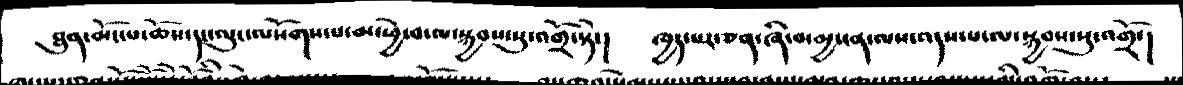ཐུན་མོང་པ་ཆོས་དང་ལུང་ལསོགས་པ་མ་ཕྱེ་བ་ལ་སྐྱབས་སུ་འགྲོ་སྟེ་།  ཁྱད་པར་ཅན་ཞི་བ་མྱ་ངན་ལས་འདས་པ་ལ་སྐྱབས་སུ་འགྲོ་།
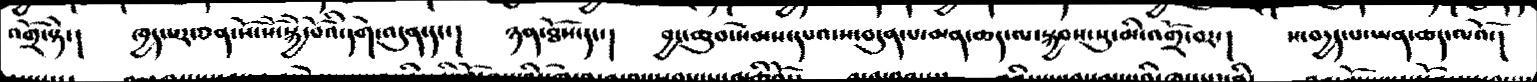འགྲོ་སྟེ་།  ཁྱད་པར་ཅན་སོ་སོ་སྐྱེ་བོའི་དགེ་འདུན་དང་།  ཉན་ཐོས་དང་།  བྱང་ཆུབ་སེམས་དཔའ་ས་བདུན་པ་མན་ཆད་ལ་སྐྱབས་སུ་མི་འགྲོ་བར་།  ས་བདྱད་པ་ཡན་ཆད་ལའོ་།
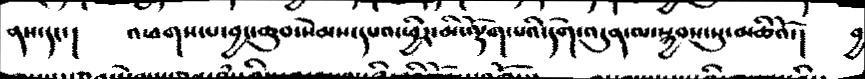ནས་དང་།  འཕགས་པ་བྱང་ཆུབ་སེམས་དཔའ་ཕྱིར་མི་ལྡོག་པའི་དགེ་འདུན་ལ་སྐྱབས་སུ་མཆིའོ་།  བྱ
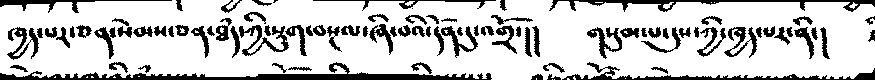ཁྱད་པར་ཅན་སེམས་ཅན་ཐཾད་ཀྱི་སྡུག་བསྔལ་ཞི་བའི་དོན་དུ་འགྲོ་།།  གསུམ་པ་དུས་ཀྱི་ཁྱད་པར་ནི་།
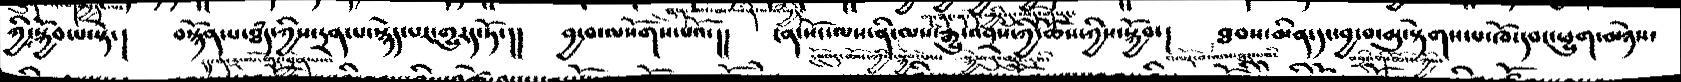ཀྱིས་སྐྱོབ་པ་སྟེ་།    བསྙོན་པ་ཐཾད་ཀྱིས་དྲན་པ་སྙེད་པར་གྱུར་ཏོ་།།  ངན་སོང་ལས་མ་ལས་རྒྱུ་འབྲས་ཀྱི་ཆོས་ཀྱིས་སྐྱོབ་།  འཁོར་བ་ལས་ཐར་པའི་ཐབས་མིན་དང་བྱ་བ་མ་སྟེགས་པ་ཁོ་དབང་ཕྱུག་མཉེས་
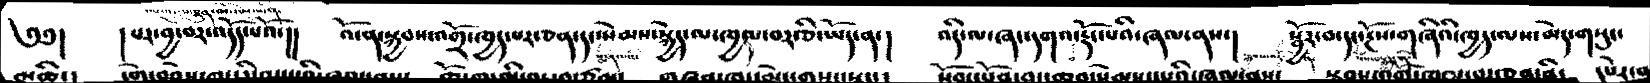༄༅།   ། པར་བྱ་བར་འདོད་པའོ་།།  འོ་ན་སྐྱབས་འགྲོ་ཁྱད་པར་ཅན་དང་སེམས་སྐྱེད་ལ་ཁྱདཔ་བར་ཅི་ཡོད་ན་།  འདི་ལ་ཞང་དགའ་རྡོང་པའི་ཞལ་ནས་།  སྦྱོར་བ་དང་རྔོས་གཞིའི་ཁྱད་ལས་མེད་གསུང་
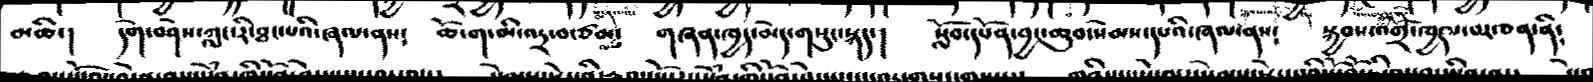མཆི་།  དགེ་བཤེས་ཀླང་རི་ཐང་པའི་ཞལ་ནས༴  ཆོ་ག་མི་འདྲ་བ་ཙམ༴     གཞན་ཁྱད་མེད་གསུང་སྐད་།  སློབ་དཔོན་བྱང་ཆུབ་སེམས་དཔའི་ཞལ་ནས༴  སྐྱབས་འགྲོ་ཁྱདཔ་པར་ཅན་ནི༴
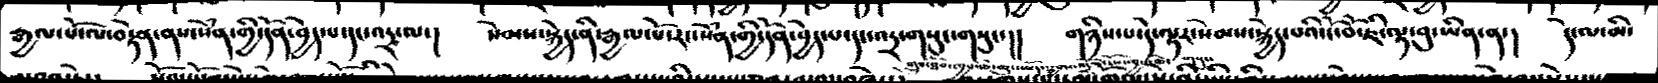རྒྱལ་པོ་ལ་བརྟེན་ནས་སེཾན་གྱི་དོན་བྱེད་པ་དང་འདྲ་ལ་།  སེམས་སྐྱེ་ནི་རྒྱལ་པོ་རང་སེཾན་གྱི་དོན་བྱེད་པ་དང་འདྲ་གསུང་གསུང་།།   གཉིས་པ་དེ་ལྟར་སེམས་སྐྱེད་པའི་ངོ་བོ་ཇི་ལྟ་བུ་ཡིན་ན་།  དེ་ལ་མི་
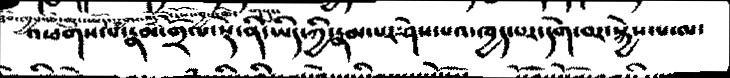འཕགས་པ་རྣམ་གྲོལ་སྡེ་ནི་ཡིད་ཀྱི་རྣམ་པར་ཤེས་པའ་ཁྱད་པར་དགེ་བར་སྐྱེས་པ་ལ་
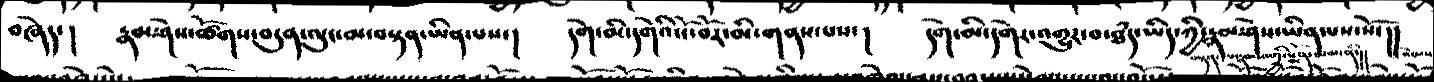བཞེད་།   རྣམ་ཤེས་ཚོགས་བདུན་ལུང་མ་བསྟན་ཡིན་པས་།   དགེ་མི་དགེའི་ངོ་བོར་མི་གནས་པས་།     དགེ་མ་དགེར་འགྱུར་བ་ཐཾད་ཡིད་ཀྱི་རྣམ་ཤེས་ཡིན་པས་སོ་།།
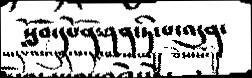སློབ་ས་དཔའ་འདུན་པདང་བཅས་ས།།  ཅེས་སོ་།། དཔོན་ཤན་ཏི་པ་འདུན་
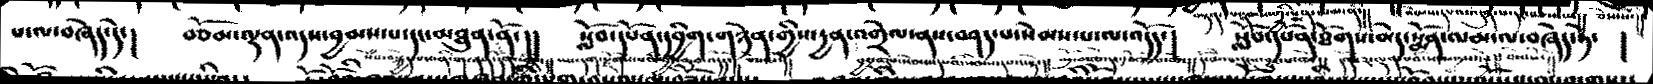པ་ལ་བཞེད་དེ་།  བཅོམ་ལྡན་འདས་བྱམས་པ་དང་མཐུན་སེཾས་བསྐྱེད་པས་ནི་གཞན་དོན་ཕྱིར་།།  ཡང་དག་རྫོགས་པའི་བྱང་ཆུབ་འདོད་།།  ཅེས་སོ་།།  ནོ་།།  སློབ་དཔོན་དབྱིག་གཉེན་གྱིས་རྒྱན་འགྲེལ་ནས་བཤད་པ་སེམས་པ་ལ་འདོད་།  སློབ་དཔོན་ཐོགས་མེད་སྨོན་ལམ་ལ་བཞེད་ཏེ་  །
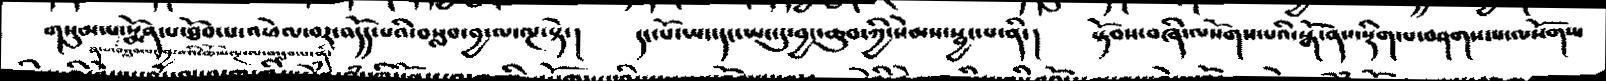གསུམ་པ་སྨོན་པ་ཐོབ་པ་འཕེལ་བར་འདོད་པའི་བསླབ་བྱ་ལ་ལྔ་སྟེ་།  དང་པོ་ཡང་དང་ཡང་དུ་བྱང་ཆུབ་ཀྱི་སེམས་སྦྱང་པ་ནི་།  སྟོབས་བཞི་ལསོགས་པའི་སྒོ་ནས་སྡིག་པ་བཤགས་པ་ལསོགས་
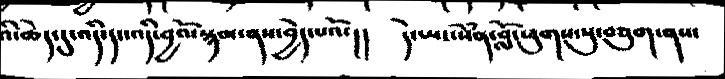འི་ཆེད་དུ་འདི་དང་འདི་བྱའོ་སྙམ་ནས་བྱེད་པའོ་།།  དེ་ཡང་སེཾན་བློ་ཕུགས་སུ་བཅུག་ནས་
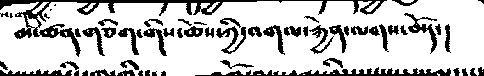མ་ཚན་གཅིག་གིས་ཆོས་ཀྱི་འགལ་རྐྱེན་ལགས་མོད་།
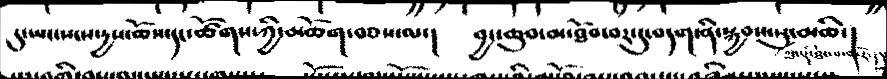དུ་ཡང་སངས་དྱས་ཆོས་དང་ཚོགས་ཀྱི་མཆོག་བཅས་ལ་།   བྱང་ཆུབ་མ་ཐོབ་བར་དུ་བདག་ནི་སྐྱབས་སུ་མཆི་།
